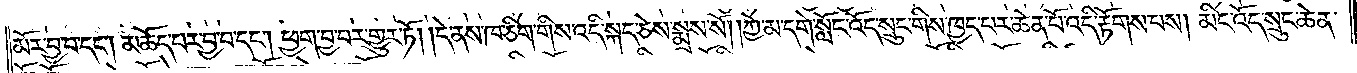མོར་བྱ་བ་དང༌། མཆོད་པར་བྱ་བ་དང༌། ཕྱག་བྱ་བར་གྱུར་ཏོ། །དེ་ནས་ཁ་ཅིག་གིས་འདི་སྐད་ཅེས་སྨྲས་སོ། །ཀྱེ་མ་དགེ་སློང་འོད་སྲུང་གིས་ཁྱད་པར་ཆེན་པོ་འདི་རྟོགས་པས། མིང་འོད་སྲུང་ཆེན་
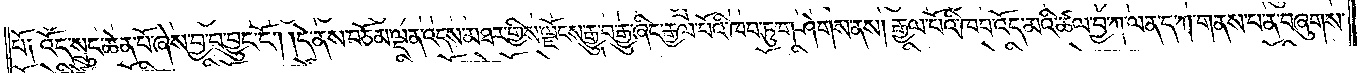པོ༑ འོད་སྲུང་ཆེན་པོ་ཞེས་བྱ་བ་བྱུང་ངོ༌། །དེ་ནས་བཅོམ་ལྡན་འདས་མཐར་གྱིས་ལྗོངས་རྒྱུ་བ་རྒྱུ་ཞིང་རྒྱལ་པོའི་ཁབ་ཏུ་གཤེགས་ནས། རྒྱལ་པོའི་ཁབ་འོད་མའི་ཚལ་བྱ་ཀ་ལན་ད་ཀ་གནས་པ་ན་བཞུགས་
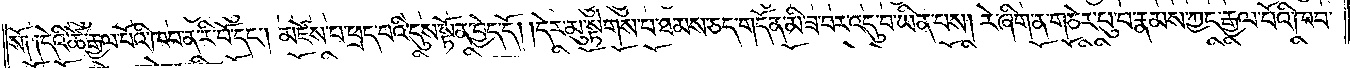སོ༑ ༑དེའི་ཚེ་རྒྱལ་པོའི་ཁབ་ན་རི་བོ་དང༌། མཛེས་པ་ཕྲད་པའི་དུས་སྟོན་བྱེད་དེ། །དེར་མུ་སྟེགས་པ་ཐམས་ཅད་གདོན་མི་ཟ་བར་འདུ་བ་ཡིན་པས། རེ་ཞིག་ན་གཅེར་པུ་པ་རྣམས་ཀྱང་རྒྱལ་པོའི་ཁབ་
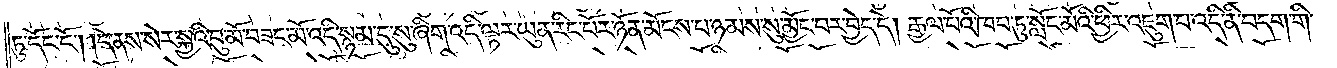ཏུ་དོང་ངོ༌། །དེ་ནས་སེར་སྐྱའི་བུ་མོ་བཟང་མོ་འདི་སྙམ་དུ་སུ་ཞིག་འདི་ལྟར་ཡུན་རིང་པོར་ཉོན་མོངས་པ་ཉམས་སུ་མྱོང་བར་བྱེད་དེ། རྒྱལ་པོའི་ཁབ་ཏུ་སློང་མོའི་ཕྱིར་འཇུག་པ་འདི་ནི་བདག་གི་
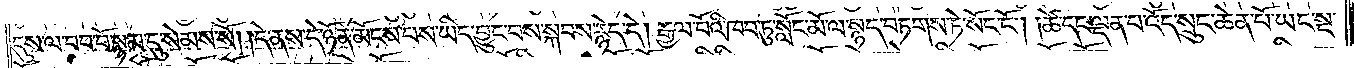དུས་ལ་བབ་པོ་སྙམ་དུ་སེམས་སོ། །དེ་ནས་དེ་ཉོན་མོངས་པས་ཡིད་བྱུང་བས་སྐབས་རྙེད་དེ། རྒྱལ་པོའི་ཁབ་ཏུ་སློང་མོ་ལ་སྙད་བཏགས་ཏེ་སོང་ངོ༌། །ཚེ་དང་ལྡན་པ་འོད་སྲུང་ཆེན་པོ་ཡང་སྔ་
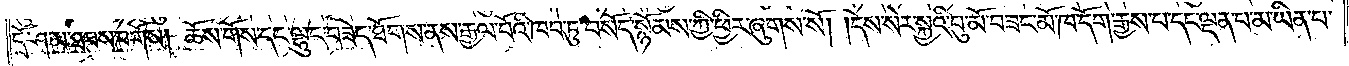དྲོ་ཤམ་ཐབས་བགོས། ཆོས་གོས་དང་ལྷུང་བཟེད་ཐོགས་ནས་རྒྱལ་པོའི་ཁབ་ཏུ་བསོད་སྙོམས་ཀྱི་ཕྱིར་ཞུགས་སོ། །དེས་སེར་སྐྱའི་བུ་མོ་བཟང་མོ་ཁ་དོག་རྒྱས་པ་དང་ལྡན་པ་མ་ཡིན་པ་
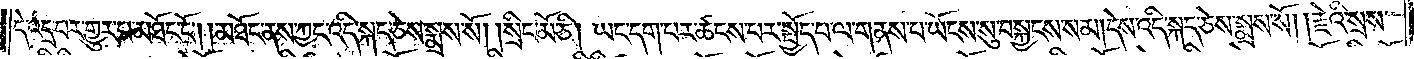དེ་འདྲ་བར་གྱུར་པ་མཐོང་ངོ༌། །མཐོང་ནས་ཀྱང་འདི་སྐད་ཅེས་སྨྲས་སོ། །སྲིང་མོ་ཅི། ཡང་དག་པར་ཚངས་པར་སྤྱོད་པ་ལ་གནས་པ་ཡོངས་སུ་བསྐྱངས་སམ།དེས་འདི་སྐད་ཅེས་སྨྲས་སོ། །རྗེའི་སྲས་
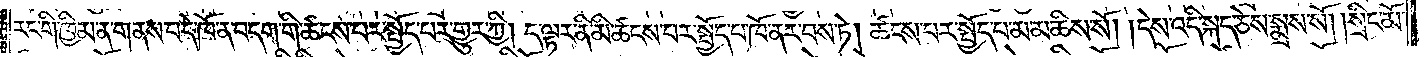རང་གི་ཁྱིམ་ན་གནས་པ་དེ་ཁོ་ན་བདག་གི་ཚངས་པར་སྤྱོད་པར་གྱུར་ཀྱི། ད་ལྟར་ནི་མི་ཚངས་པར་སྤྱོད་པ་ཁོ་ནར་བས་ཏེ། ཚངས་པར་སྤྱོད་པ་མ་མཆིས་སོ། །དེས་འདི་སྐད་ཅེས་སྨྲས་སོ། །སྲིང་མོ་
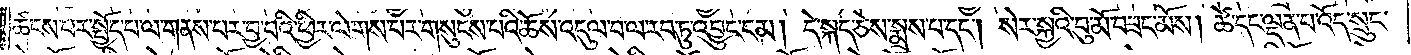ཚངས་པར་སྤྱོད་པ་ལ་གནས་པར་བྱ་བའི་ཕྱིར་ལེགས་པར་གསུངས་པའི་ཆོས་འདུལ་བ་ལ་རབ་ཏུ་འབྱུང་ངམ། དེ་སྐད་ཅེས་སྨྲས་པ་དང༌། སེར་སྐྱའི་བུ་མོ་བཟང་མོས། ཚེ་དང་ལྡན་པ་འོད་སྲུང་
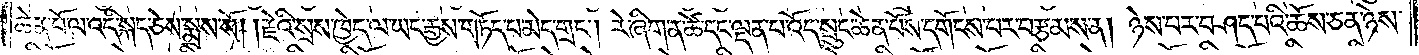ཆེན་པོ་ལ་འདི་སྐད་ཅེས་སྨྲས་སོ། །རྗེའི་སྲས་ཁྱེད་ལ་ཡང་རྒྱས་གཏོད་པ་མེད་གྲང༌། རེ་ཞིག་ན་ཚེ་དང་ལྡན་པ་འོད་སྲུང་ཆེན་པོས་དགོངས་པར་བརྩམས་ན། ཉེས་པར་བཤད་པའི་ཆོས་ཅན་ཉེས་
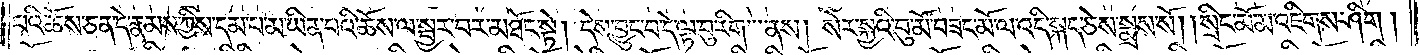པའི་ཆོས་ཅན་དེ་རྣམས་ཀྱི་དམ་པ་མ་ཡིན་པའི་ཆོས་ལ་སྦྱར་བར་མཐོང་སྟེ། དེས་བྱུང་བ་དེ་ལྟ་བུ་རིག་ནས། སེར་སྐྱའི་བུ་མོ་བཟང་མོ་ལ་འདི་སྐད་ཅེས་སྨྲས་སོ། །སྲིང་མོ་མ་འཇིགས་ཤིག །
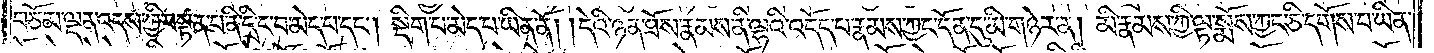བཅོམ་ལྡན་འདས་ཀྱི་བསྟན་པ་ནི་དྲི་ང་བ་མེད་པ་དང༌། སྡིག་པ་མེད་པ་ཡིན་ནོ། །དེའི་ཉན་ཐོས་རྣམས་ནི་ལྷའི་འདོད་པ་རྣམས་ཀྱང་དོན་དུ་མི་གཉེར་ན། མི་རྣམས་ཀྱི་ལྟ་སྨོས་ཀྱང་ཅི་དགོས་པ་ཡིན་
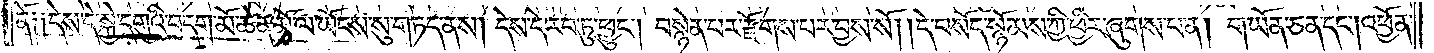ནོ༑ ༑དེས་དེ་སྐྱེ་དགུའི་བདག་མོ་ཆེན་མོ་ལ་ཡོངས་སུ་གཏད་ནས། དེས་དེ་རབ་ཏུ་ཕྱུང༌། བསྙེན་པར་རྫོགས་པར་བྱས་སོ། །དེ་བསོད་སྙོམས་ཀྱི་ཕྱིར་ཞུགས་པ་ན། གཡོན་ཅན་དང༌། འཕྱོན་
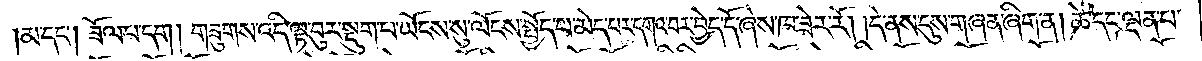མ་དང༌། ཟོལ་པ་དག། གཟུགས་འདི་ལྟ་བུར་སྡུག་པ་ཡོངས་སུ་ལོངས་སྤྱོད་པ་མེད་པར་དགའ་བར་བྱེད་དོ་ཞེས་ཁ་ཟེར་རོ། །དེ་ནས་དུས་གཞན་ཞིག་ན། ཚེ་དང་ལྡན་པ་
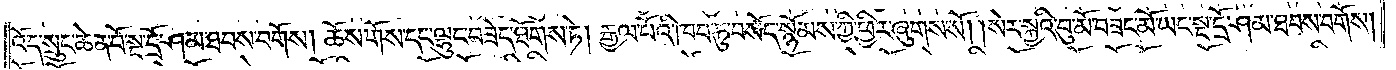འོད་སྲུང་ཆེན་པོ་སྔ་དྲོ་ཤམ་ཐབས་བགོས། ཆོས་གོས་དང་ལྷུང་བཟེད་ཐོགས་ཏེ། རྒྱལ་པོའི་ཁབ་ཏུ་བསོད་སྙོམས་ཀྱི་ཕྱིར་ཞུགས་སོ། །སེར་སྐྱའི་བུ་མོ་བཟང་མོ་ཡང་སྔ་དྲོ་ཤམ་ཐབས་བགོས་
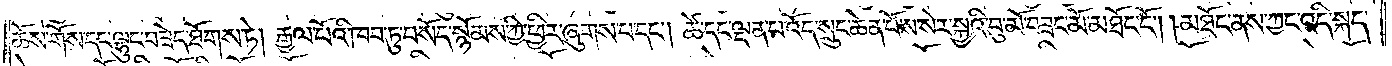ཆོས་གོས་དང་ལྷུང་བཟེད་ཐོགས་ཏེ། རྒྱལ་པོའི་ཁབ་ཏུ་བསོད་སྙོམས་ཀྱི་ཕྱིར་ཞུགས་པ་དང༌། ཚེ་དང་ལྡན་པ་འོད་སྲུང་ཆེན་པོས་སེར་སྐྱའི་བུ་མོ་བཟང་མོ་མཐོང་ངོ༌། །མཐོང་ནས་ཀྱང་འདི་སྐད་
